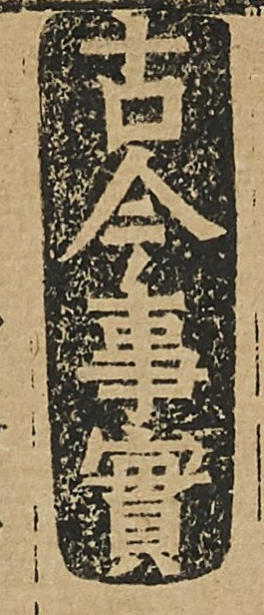古今事實
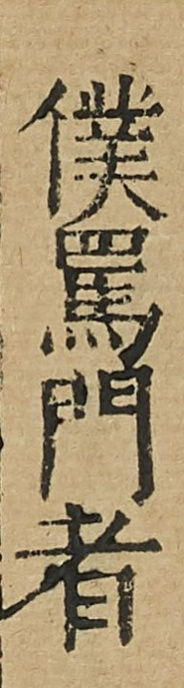僕罵門者
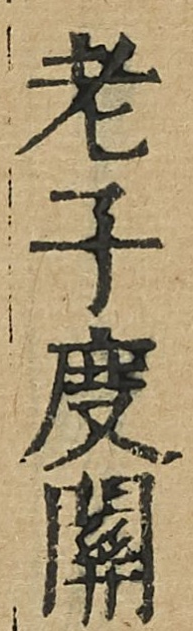老子度關
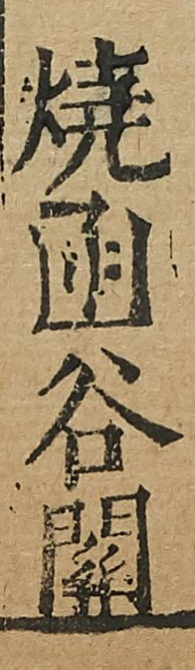燒函谷關
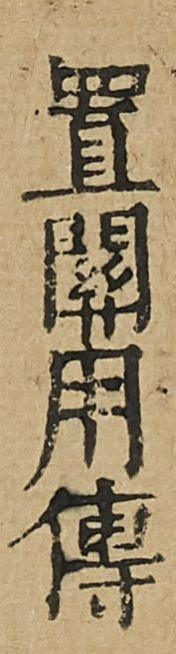置關用傳
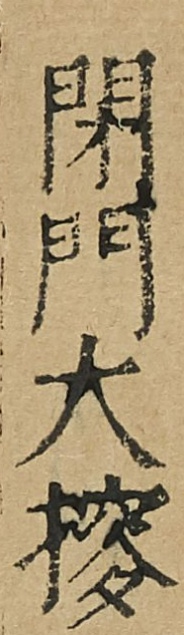閉門大捜
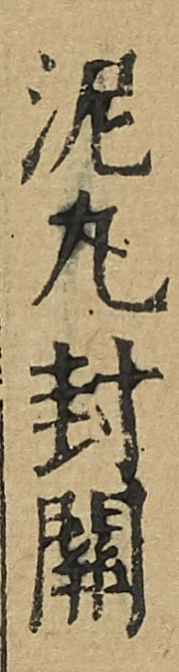泥丸封關
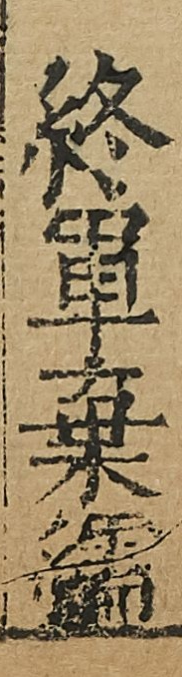終軍棄繻
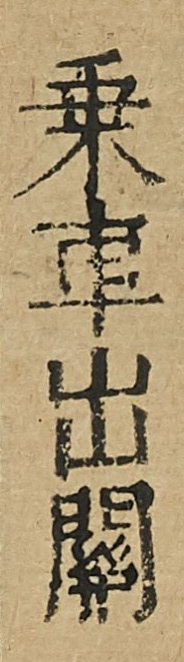乗車出關
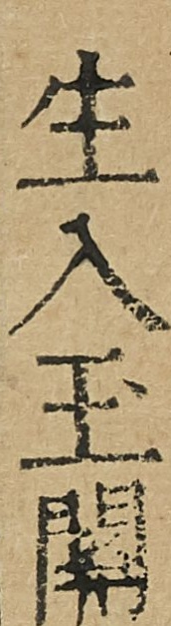生入玉關
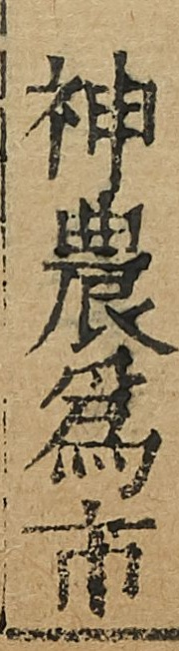神農為市
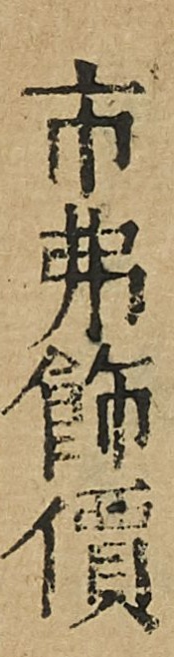市弗飾價
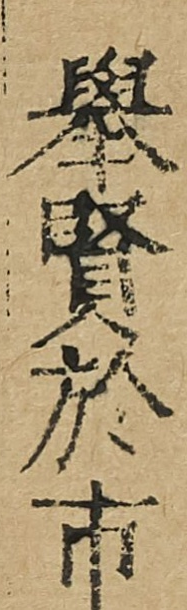舉賢於市
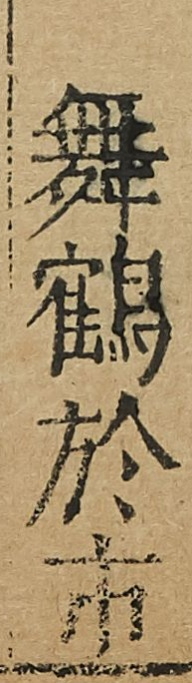舞鶴於市
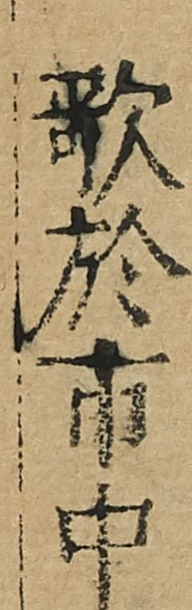歌於市中
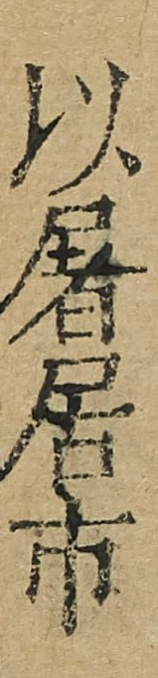以屠居市
